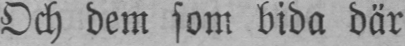Och dem som bida där
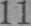11
